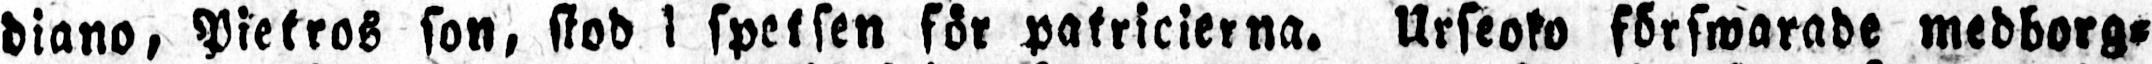diano, Pietros son, stod spetsen för patricierna. Urseoko förswarade medborg-
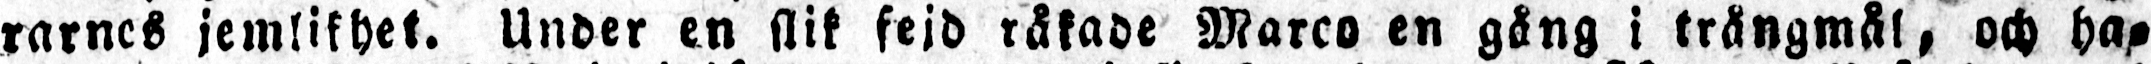rarnes jemlikhet. Under en slik fejd råkade Marco en gång i trångmål, och ha-
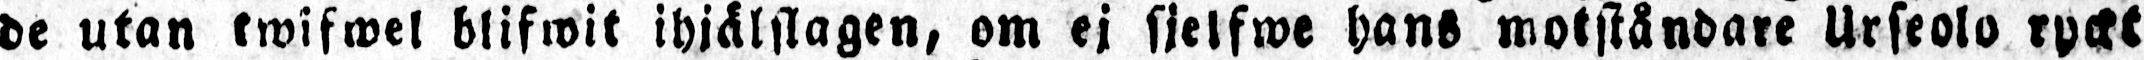de utan twifwel blifwit ihjälslagen, om ej sjelfwe hans motståndare Urseolo ryckt
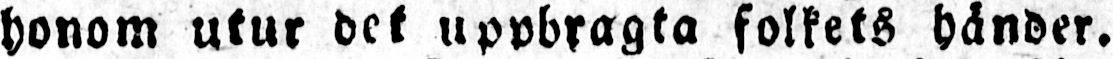honom utur det uppbragta folkets händer.
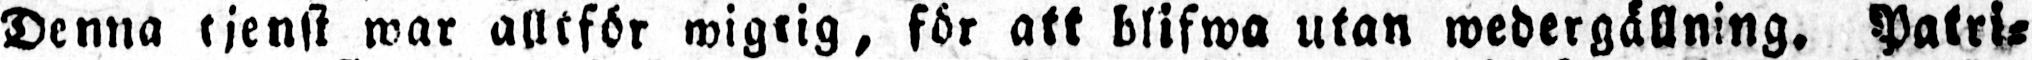Denna tjenst war alltför wigtig, för att blifwa utan wedergällning. Patri-
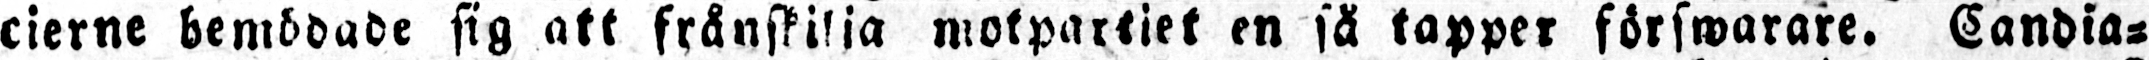cierne bemödade sig att frånskilja motpartiet en så tapper förswarare. Candia-
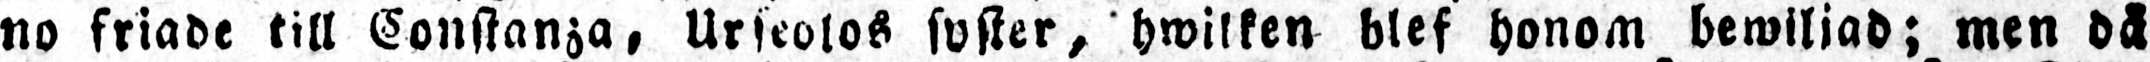no friade till Constanza, Urseolos syster, hwilken blef honom bewiljad; men då
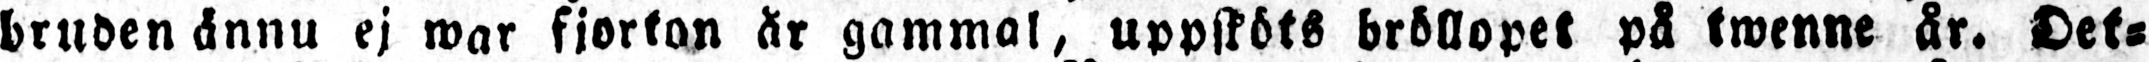bruden ännu ej war fjorton år gammal, uppsköts bröllopet på twenne år. Det-
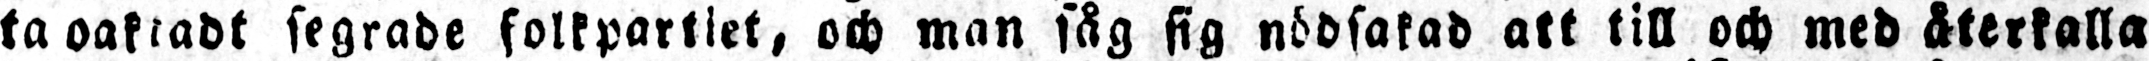ta oaktadt segrade folkpartiet, och man såg sig nödsakad att till och med återkalla
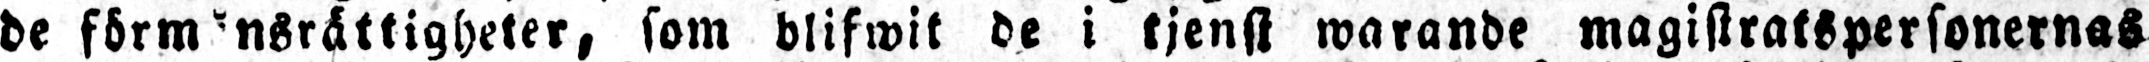de förmånsrättigheter, som blifwit de i tjenst warande magistratspersonernas
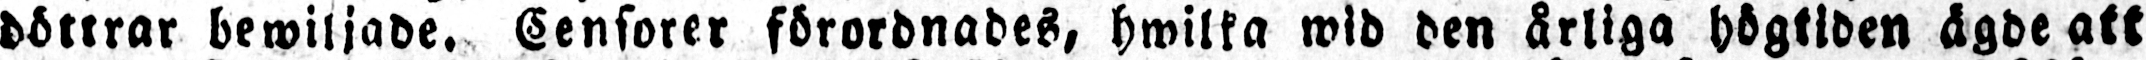döttrar bewiljade. Censorer förordnades, hwilka wid den årliga högtiden ägde att
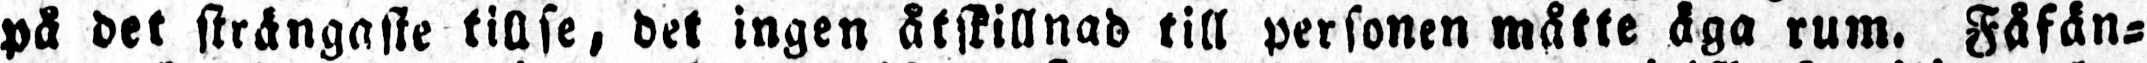på det strängaste tillse, det ingen åtskillnad till personen måtte äga rum. Fåfän-
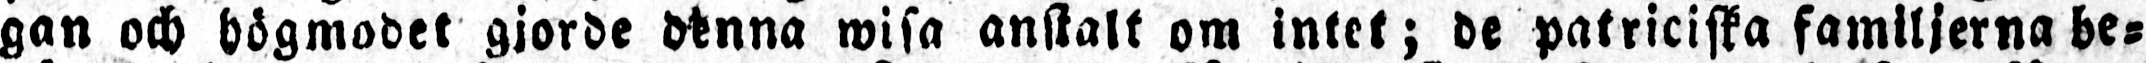gan och högmodet gjorde denna wisa anstalt om intet; de patriciska familjerna be-
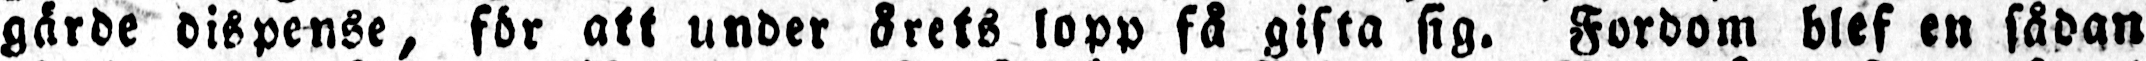gärde dispense, för att under årets lopp få gifta sig. Fordom blef en sådan
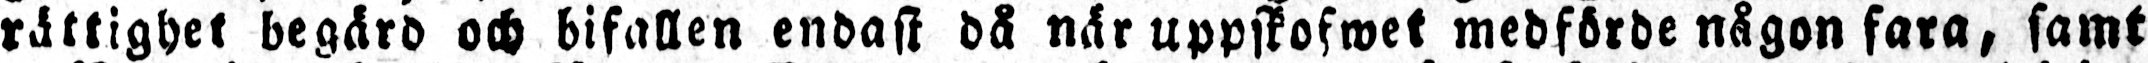rättighet begärd och bifallen endast då när uppskofwet medförde någon fara, samt
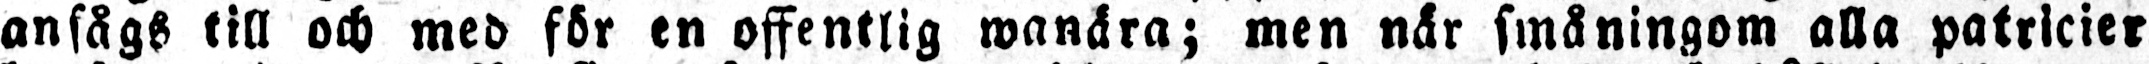ansågs till och med för en offentlig wanära; men när småningom alla patricier
